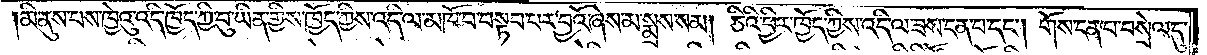།མི་ནུས་པས་ཁྱེའུ་འདི་ཁྱོད་ཀྱི་བུ་ཡིན་གྱིས་ཁྱོད་ཀྱིས་འདི་ལ་མཁོ་བ་བསྟབ་པར་བྱའོ་ཞེས་མ་སྨྲས་སམ། ཅིའི་ཕྱིར་ཁྱོད་ཀྱིས་འདི་ལ་ཟས་ངན་པ་དང༌། གོས་ངན་པ་བསྲེལ་དུ་
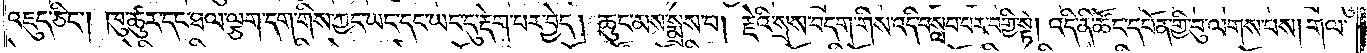འཇུད་ཅིང༌། ཁུ་ཚུར་དང་ཐལ་ལྕག་དག་གིས་ཀྱང་ཡང་དང་ཡང་དུ་རྡེག་པར་བྱེད། ཆུང་མས་སྨྲས་པ། རྗེའི་སྲས་བདག་གིས་འདི་བསླབ་པར་བགྱི་སྟེ། འདི་ནི་ཚོང་དཔོན་གྱི་བུ་ལགས་པས། གལ་
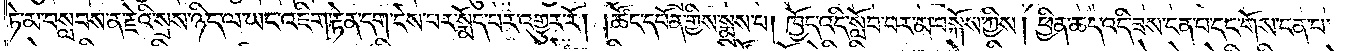ཏེ་མ་བསླབས་ན་རྗེའི་སྲས་ཉིད་ལ་ཡང་འཇིག་རྟེན་དག་ངེས་པར་སྨོད་པར་འགྱུར་རོ། །ཚོང་དཔོན་གྱིས་སྨྲས་པ། ཁྱོད་འདི་སློབ་པར་མ་བསྐོས་ཀྱིས། ཕྱིན་ཆད་འདི་ཟས་ངན་པ་དང་གོས་ངན་པ་
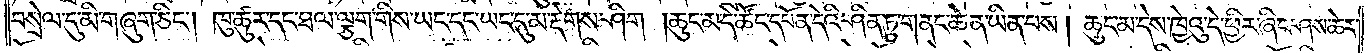བསྲེལ་དུ་མི་གཞུག་ཅིང༌། ཁུ་ཚུར་དང་ཐལ་ལྕག་གིས་ཡང་དང་ཡང་དུ་མ་རྡེགས་ཤིག །ཆུང་མ་དེ་ཚོང་དཔོན་དེའི་ཤིན་ཏུ་གནང་ཆེན་ཡིན་པས། ཆུང་མ་དེས་ཁྱེའུ་དེ་ཕྱིར་ཞིང་ཤས་ཆེར་
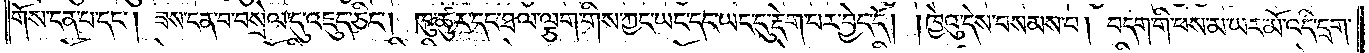གོས་ངན་པ་དང༌། ཟས་ངན་པ་བསྲེལ་དུ་འཇུད་ཅིང༌། ཁུ་ཚུར་དང་ཐལ་ལྕག་གིས་ཀྱང་ཡང་དང་ཡང་དུ་རྡེག་པར་བྱེད་དོ། །ཁྱེའུ་དེས་བསམས་པ། བདག་གི་ཕས་མ་ཡར་མོ་འདི་དྲག་
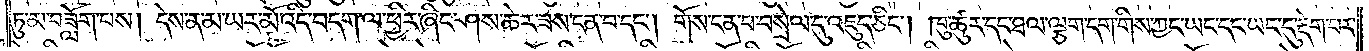ཏུ་མ་བཟློག་པས། དེས་ན་མ་ཡར་མོ་འདི་བདག་ལ་ཕྱིར་ཞིང་ཤས་ཆེར་ཟས་ངན་པ་དང༌། གོས་ངན་པ་བསྲེལ་དུ་འཇུད་ཅིང༌། ཁུ་ཚུར་དང་ཐལ་ལྕག་དག་གིས་ཀྱང་ཡང་དང་ཡང་དུ་རྡེག་པར་
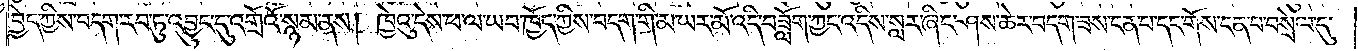བྱེད་ཀྱིས་བདག་རབ་ཏུ་འབྱུང་དུ་འགྲོའོ་སྙམ་ནས། ཁྱེའུ་དེས་ཕ་ལ་ཡབ་ཁྱོད་ཀྱིས་བདག་གི་མ་ཡར་མོ་འདི་བཟློག་ཀྱང་འདིས་སླར་ཞིང་ཤས་ཆེར་བདག་ཟས་ངན་པ་དང་གོས་ངན་པ་བསྲེལ་དུ་
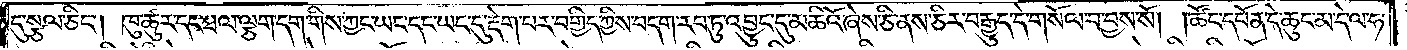དུ་སྩལ་ཅིང༌། ཁུ་ཚུར་དང་ཐལ་ལྕག་དག་གིས་ཀྱང་ཡང་དང་ཡང་དུ་རྡེག་པར་བགྱིད་ཀྱིས་བདག་རབ་ཏུ་འབྱུང་དུ་མཆིའོ་ཞེས་ཅི་ནས་ཅིར་བརྒྱུད་དེ་གསོལ་བ་བྱས་སོ། །ཚོང་དཔོན་དེ་ཆུང་མ་དེ་ལ་ཧ་
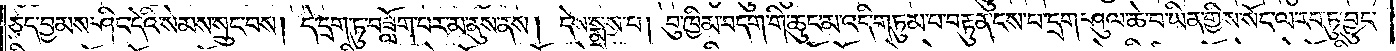ཅད་བྱམས་ཤིང་དེའི་སེམས་སྲུང་བས། དེ་དྲག་ཏུ་བཟློག་པར་མ་ནུས་ནས། དེས་སྨྲས་པ། བུ་ཁྱིམ་བདག་གི་ཆུང་མ་འདི་གཏུམ་པ་བརྟུན་ངས་པ་དྲག་ཤུལ་ཆེ་བ་ཡིན་གྱིས་སོང་ལ་རབ་ཏུ་བྱུང་
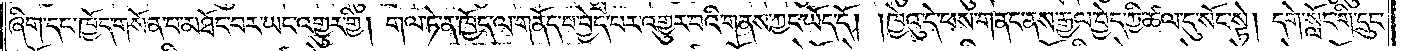ཞིག་དང་ཁྱོད་གསོན་པ་མཐོང་བར་ཡང་འགྱུར་གྱི། གལ་ཏེ་ན་ཁྱོད་ལ་གནོད་པ་བྱེད་པར་འགྱུར་བའི་གནས་ཀྱང་ཡོད་དོ། །ཁྱེའུ་དེ་ཕས་གནང་ནས་རྒྱལ་བྱེད་ཀྱི་ཚལ་དུ་སོང་སྟེ། དགེ་སློང་གི་དྲུང་
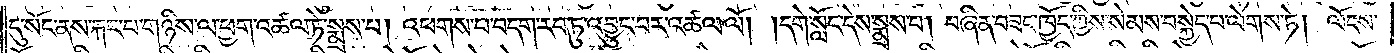དུ་སོང་ནས་རྐང་པ་གཉིས་ལ་ཕྱག་འཚལ་ཏེ་སྨྲས་པ། འཕགས་པ་བདག་རབ་ཏུ་འབྱུང་བར་འཚལ་ལོ། །དགེ་སློང་དེས་སྨྲས་པ། བཞིན་བཟང་ཁྱོད་ཀྱིས་སེམས་བསྐྱེད་པ་ལེགས་ཏེ། ལོངས་
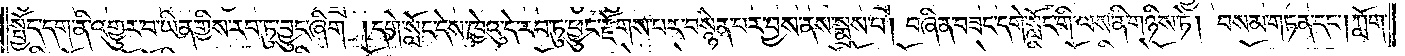སྤྱོད་དག་ནི་འགྱུར་བ་ཡིན་གྱིས་རབ་ཏུ་བྱུང་ཞིག །དགེ་སློང་དེས་ཁྱེའུ་དེ་རབ་ཏུ་ཕྱུང་རྫོགས་པར་བསྙེན་པར་བྱས་ནས་སྨྲས་པ། བཞིན་བཟང་དགེ་སློང་གི་ལས་ནི་གཉིས་ཏེ། བསམ་གཏན་དང༌། ཀློག་
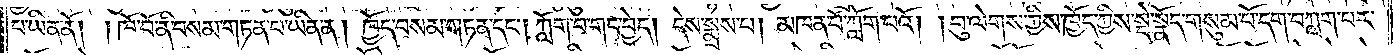པ་ཡིན་ནོ། །ཁོ་བོ་ནི་བསམ་གཏན་པ་ཡིན་ན། ཁྱོད་བསམ་གཏན་དང༌། ཀློག་པ་གང་བྱེད། དེས་སྨྲས་པ། མཁན་པོ་ཀློག་པའོ། །བུ་ལེགས་ཀྱིས་ཁྱོད་ཀྱིས་སྡེ་སྣོད་གསུམ་པོ་དག་བཀླག་པར་
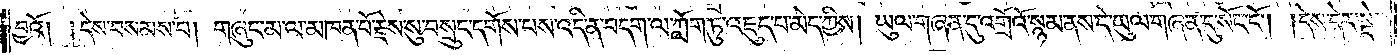བྱའོ། །དེས་བསམས་པ། གཞུང་མ་ལ་མཁན་པོ་རྗེས་སུ་བསྲུང་དགོས་པས་འདི་ན་བདག་ལ་ཀློག་ཏུ་འཇུད་པ་མེད་ཀྱིས། ཡུལ་གཞན་དུ་འགྲོའོ་སྙམ་ནས་དེ་ཡུལ་གཞན་དུ་སོང་ངོ༌། །དེས་དེར་སྡེ་
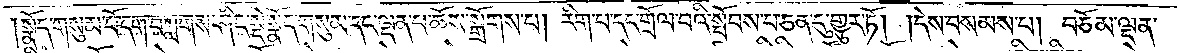།སྣོད་གསུམ་པོ་དག་བཀླགས་ཤིང་སྡེ་སྣོད་གསུམ་དང་ལྡན་པ་ཆོས་སྒྲོགས་པ། རིག་པ་དང་གྲོལ་བའི་སྤོབས་པ་ཅན་དུ་གྱུར་ཏོ། །དེས་བསམས་པ། བཅོམ་ལྡན་
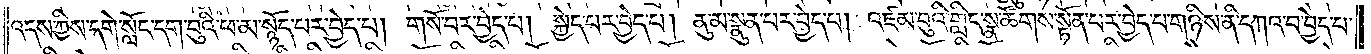འདས་ཀྱིས་དགེ་སློང་དག་བུའི་ཕ་མ་སྙོད་པར་བྱེད་པ། གསོ་བར་བྱེད་པ། སྐྱེད་པར་བྱེད་པ། ནུ་མ་སྣུན་པར་བྱེད་པ། འཛམ་བུའི་གླིང་སྣ་ཚོགས་སྟོན་པར་བྱེད་པ་གཉིས་ནི་དཀའ་བ་བྱེད་པ་
